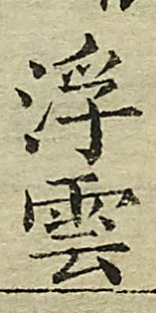浮雲
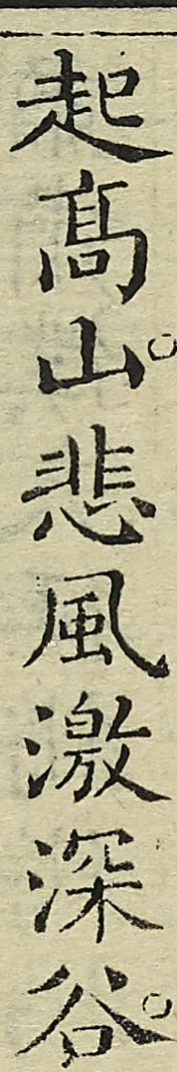起高山悲風激深谷
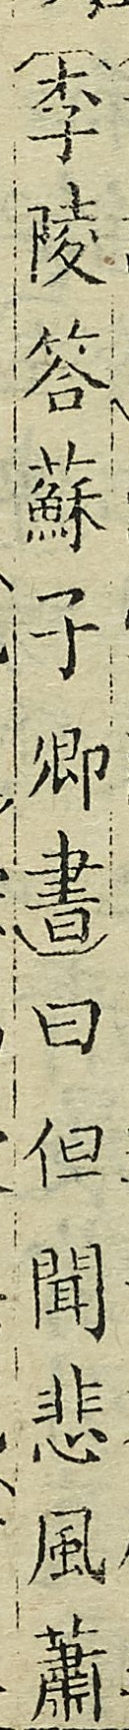（李陵答蘇子卿書）曰但聞悲風蕭
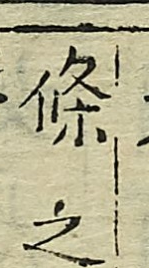條之
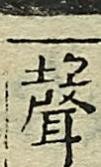聲
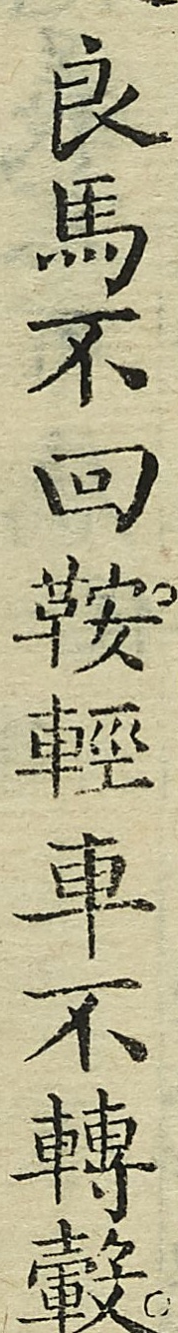良馬不回鞍輕車不轉轂
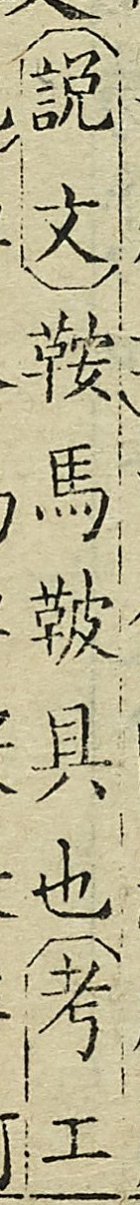（説文）鞍馬鞁具也（考工
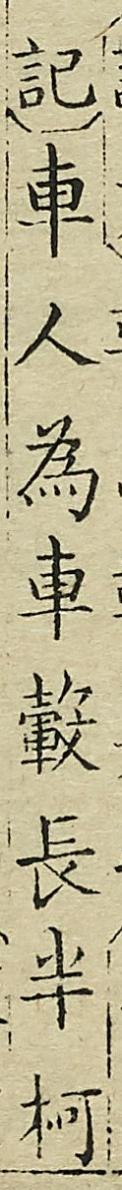記）車人為車轂長半柯
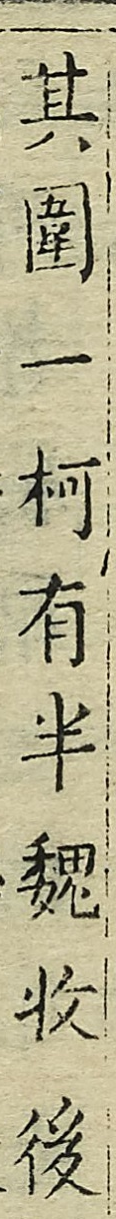其圍一柯有半魏收後
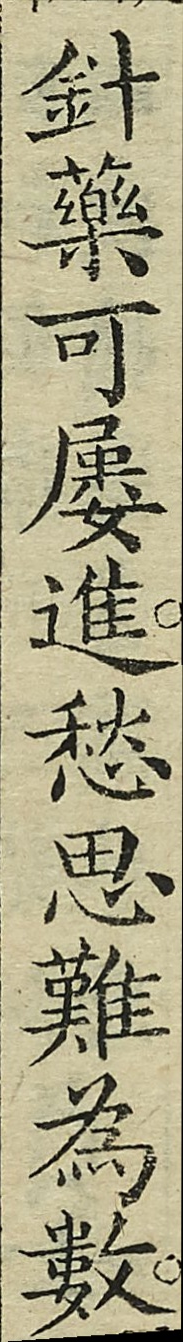針藥可屢進愁思難為數
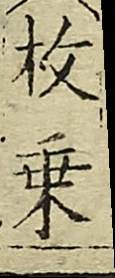（枚乘
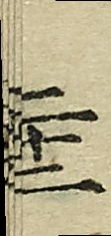二十二
